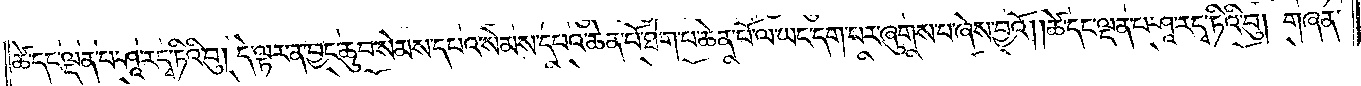ཚེ་དང་ལྡན་པ་ཤཱ་རདྭ་ཏིའི་བུ། དེ་ལྟར་ན་བྱང་ཆུབ་སེམས་དཔའ་སེམས་དཔའ་ཆེན་པོ་ཐེག་པ་ཆེན་པོ་ལ་ཡང་དག་པར་ཞུགས་པ་ཞེས་བྱའོ། །ཚེ་དང་ལྡན་པ་ཤཱ་ར་དྭ་ཏིའི་བུ། གཞན་
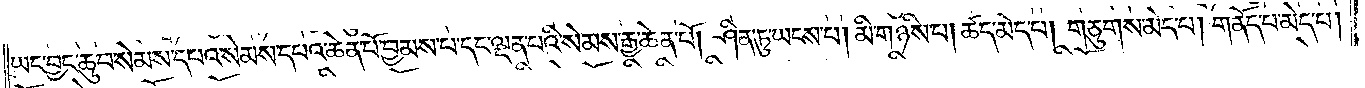ཡང་བྱང་ཆུབ་སེམས་དཔའ་སེམས་དཔའ་ཆེན་པོ་བྱམས་པ་དང་ལྡན་པའི་སེམས་རྒྱ་ཆེན་པོ། ཤིན་ཏུ་ཡངས་པ། མི་གཉིས་པ། ཚད་མེད་པ། གཅུགས་མེད་པ། གནོད་པ་མེད་པ།
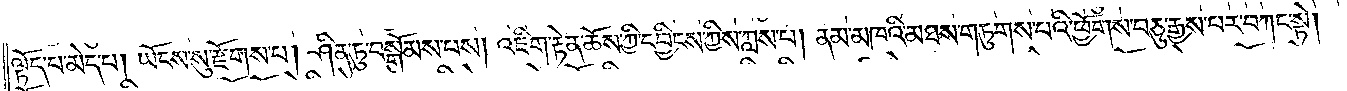ལྟོད་པ་མེད་པ། ཡོངས་སུ་རྫོགས་པ། ཤིན་ཏུ་བསྒོམས་པས། འཇིག་རྟེན་ཆོས་ཀྱི་དབྱིངས་ཀྱིས་ཀླས་པ། ནམ་མཁའི་མཐས་གཏུགས་པའི་ཕྱོགས་བཅུ་རྒྱས་པར་བཀང་སྟེ།
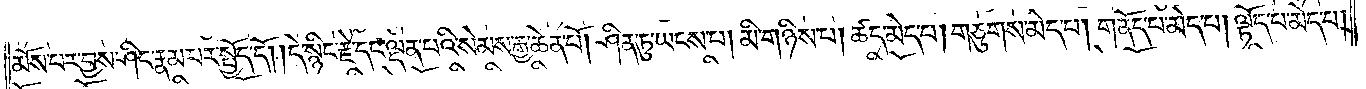མོས་པར་བྱས་ཤིང་རྣམ་པར་སྤྱོད་དོ། །དེ་སྙིང་རྗེ་དང་ལྡན་པའི་སེམས་རྒྱ་ཆེན་པོ། ཤིན་ཏུ་ཡངས་པ། མི་གཉིས་པ། ཚད་མེད་པ། གཅུགས་མེད་པ། གནོད་པ་མེད་པ། ལྟོད་པ་མེད་པ།
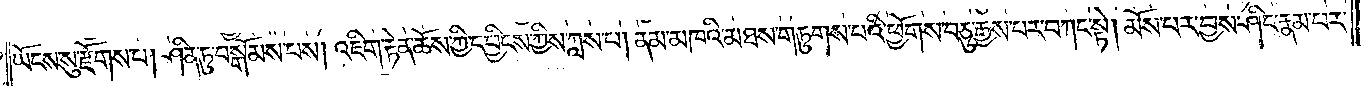ཡོངས་སུ་རྫོགས་པ། ཤིན་ཏུ་བསྒོམས་པས། འཇིག་རྟེན་ཆོས་ཀྱི་དབྱིངས་ཀྱིས་ཀླས་པ། ནམ་མཁའི་མཐས་གཏུགས་པའི་ཕྱོགས་བཅུ་རྒྱས་པར་བཀང་སྟེ། མོས་པར་བྱས་ཤིང་རྣམ་པར་
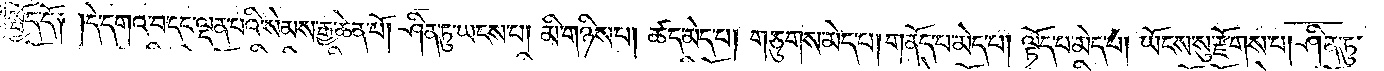སྤྱོད་དོ། །དེ་དགའ་བ་དང་ལྡན་པའི་སེམས་རྒྱ་ཆེན་པོ། ཤིན་ཏུ་ཡངས་པ། མི་གཉིས་པ། ཚད་མེད་པ། གཅུགས་མེད་པ། གནོད་པ་མེད་པ། ལྟོད་པ་མེད་པ། ཡོངས་སུ་རྫོགས་པ། ཤིན་ཏུ་
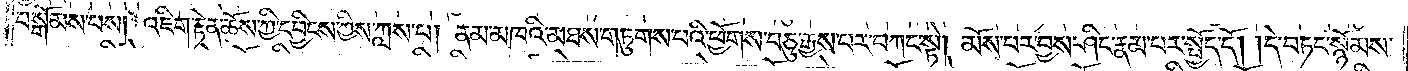བསྒོམས་པས། འཇིག་རྟེན་ཆོས་ཀྱི་དབྱིངས་ཀྱིས་ཀླས་པ། ནམ་མཁའི་མཐས་གཏུགས་པའི་ཕྱོགས་བཅུ་རྒྱས་པར་བཀང་སྟེ། མོས་པར་བྱས་ཤིང་རྣམ་པར་སྤྱོད་དོ། །དེ་བཏང་སྙོམས་
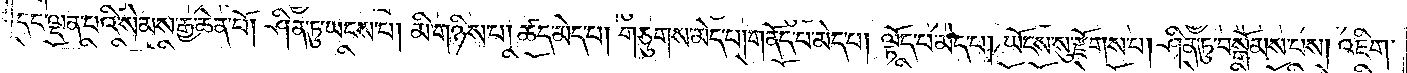དང་ལྡན་པའི་སེམས་རྒྱ་ཆེན་པོ། ཤིན་ཏུ་ཡངས་པ། མི་གཉིས་པ། ཚད་མེད་པ། གཅུགས་མེད་པ། གནོད་པ་མེད་པ། ལྟོད་པ་མེད་པ། ཡོངས་སུ་རྫོགས་པ། ཤིན་ཏུ་བསྒོམས་པས། འཇིག་
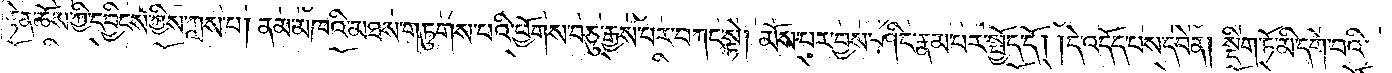རྟེན་ཆོས་ཀྱི་དབྱིངས་ཀྱིས་ཀླས་པ། ནམ་མཁའི་མཐས་གཏུགས་པའི་ཕྱོགས་བཅུ་རྒྱས་པར་བཀང་སྟེ། མོས་པར་བྱས་ཤིང་རྣམ་པར་སྤྱོད་དོ། །དེ་འདོད་པས་དབེན། སྡིག་ཏོ་མི་དགེ་བའི་
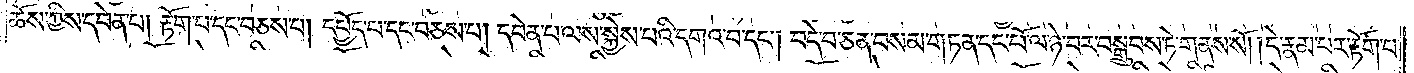ཆོས་ཀྱིས་དབེན་པ། རྟོག་པ་དང་བཅས་པ། དཔྱོད་པ་དང་བཅས་པ། དབེན་པ་ལས་སྐྱེས་པའི་དགའ་བ་དང༌། བདེ་བ་ཅན་བསམ་གཏན་དང་པོ་ལ་ཉེ་བར་བསྒྲུབས་ཏེ་གནས་སོ། །དེ་རྣམ་པར་རྟོག་པ་
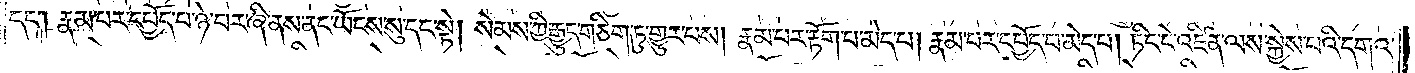དང༌། རྣམ་པར་དཔྱོད་པ་ཉེ་བར་ཞི་ནས་ནང་ཡོངས་སུ་དང་སྟེ། སེམས་ཀྱི་རྒྱུད་གཅིག་ཏུ་གྱུར་པས། རྣམ་པར་རྟོག་པ་མེད་པ། རྣམ་པར་དཔྱོད་པ་མེད་པ། ཏིང་ངེ་འཛིན་ལས་སྐྱེས་པའི་དགའ་
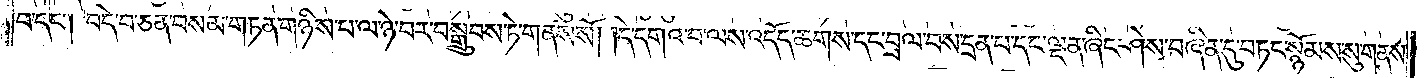བ་དང༌། བདེ་བ་ཅན་བསམ་གཏན་གཉིས་པ་ལ་ཉེ་བར་བསྒྲུབས་ཏེ་གནས་སོ། །དེ་དགའ་བ་ལས་འདོད་ཆགས་དང་བྲལ་བས་དྲན་པ་དང་ལྡན་ཞིང་ཤེས་བཞིན་དུ་བཏང་སྙོམས་སུ་གནས་
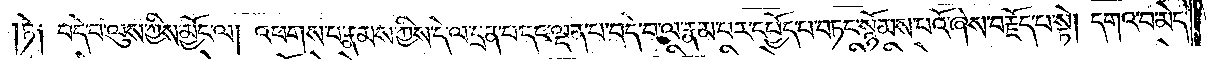ཏེ། བདེ་བ་ལུས་ཀྱིས་མྱོང་ལ། འཕགས་པ་རྣམས་ཀྱིས་དེ་ལ་དྲན་པ་དང་ལྡན་པ་བདེ་བ་ལ་རྣམ་པར་དཔྱོད་པ་བཏང་སྙོམས་པའོ་ཞེས་བརྗོད་པ་སྟེ། དགའ་བ་མེད་
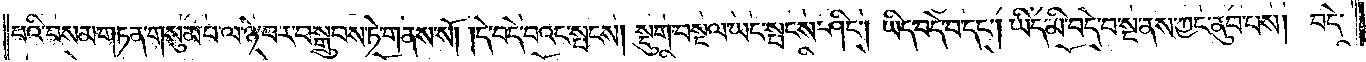པའི་བསམ་གཏན་གསུམ་པ་ལ་ཉེ་བར་བསྒྲུབས་ཏེ་གནས་སོ། །དེ་བདེ་བའང་སྤངས། སྡུག་བསྔལ་ཡང་སྤངས་ཤིང༌། ཡིད་བདེ་བ་དང༌། ཡིད་མི་བདེ་བ་སྔ་ནས་ཀྱང་ནུབ་པས། བདེ་
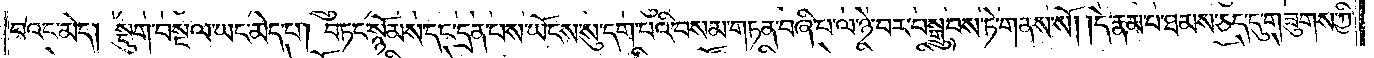བའང་མེད། སྡུག་བསྔལ་ཡང་མེད་པ། བཏང་སྙོམས་དང་དྲན་པས་ཡོངས་སུ་དག་པའི་བསམ་གཏན་བཞི་ལ་ཉེ་བར་བསྒྲུབས་ཏེ་གནས་སོ། །དེ་རྣམ་པ་ཐམས་ཅད་དུ་གཟུགས་ཀྱི་
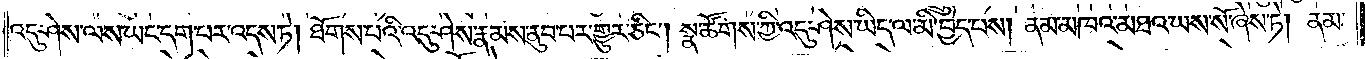འདུ་ཤེས་ལས་ཡང་དག་པར་འདས་ཏེ། ཐོགས་པའི་འདུ་ཤེས་རྣམས་ནུབ་པར་གྱུར་ཅིང༌། སྣ་ཚོགས་ཀྱི་འདུ་ཤེས་ཡིད་ལ་མི་བྱེད་པས། ནམ་མཁའ་མཐའ་ཡས་སོ་ཞེས་ཏེ། ནམ་
